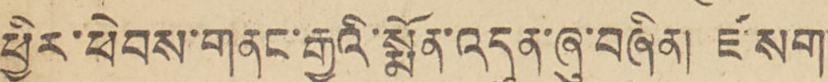ཕྱིར་ཕེབས་གནང་རྒྱུའི་སྨོན་འདུན་ཞུ་བཞིན། ཛ་སག་
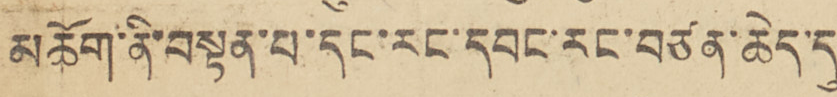མཆོག་ནི་བསྟན་པ་དང་རང་དབང་རང་བཙན་ཆེད་དུ་
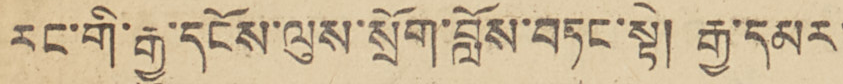རང་གི་རྒྱུ་དངོས་ལུས་སློག་བློས་བཏང་སྟེ། རྒྱ་དམར་
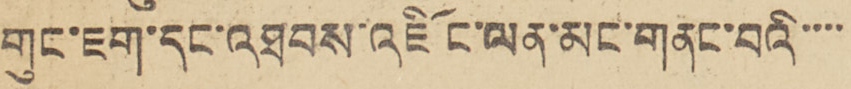གུང་ཇག་དང་འཐབས་འཛིང་ལན་མང་གནང་བའི་་་་
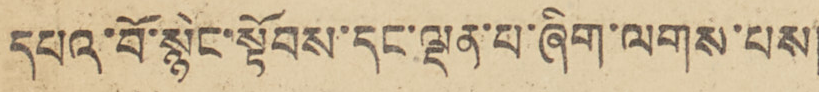དཔའ་བོ་སྙིང་སྟོབས་དང་ལྡན་པ་ཞིག་ལྒས་པས།
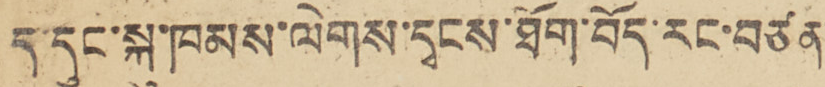ད་དུང་སྐུ་ཁམས་ལེགས་དྭངས་ཐོག་བོད་རང་བཙན་
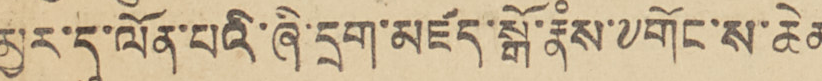མྱུར་དུ་ལོན་པའི་ཞི་དྲག་མཛད་སྒོ་རྣས་༸གོང་ས་ཆེན
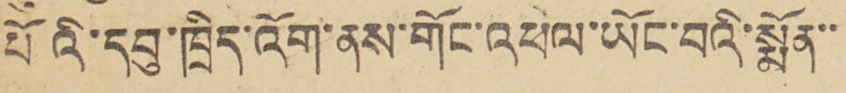པོའི་དབུ་ཁྲིད་འོག་ནས་གོང་འཕེལ་ཡོང་བའི་སྨོན་་
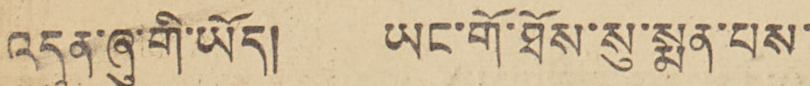འདུན་ཞུ་གི་ཡོད། ཡང་གོ་ཐོས་སུ་སྨན་པས་་
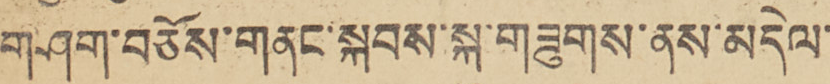གཤག་བཅོས་གནང་སྐབས་སྐུ་གཟུགས་ནས་མདེལ་
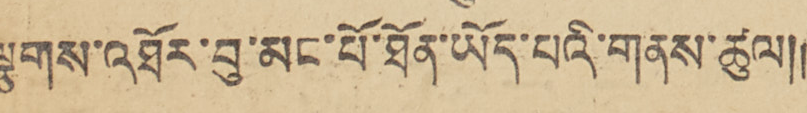ལྕགས་འཐོར་བུ་མང་པོ་ཐོན་ཡོད་པའི་གནས་ཚུལ།།
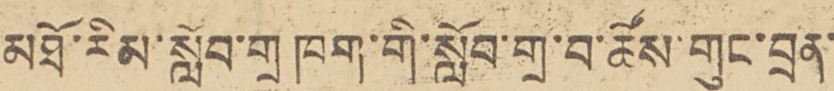མཐོ་རིམ་སློབ་གྲྭ ཁག་གི་སློབ་གྲྭ་བ་ཚོས་གུང་བྲན་
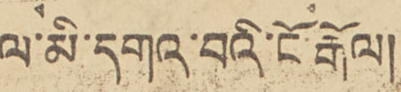ལ་མི་དགའ་བའི་ངོ་རྒོལ།
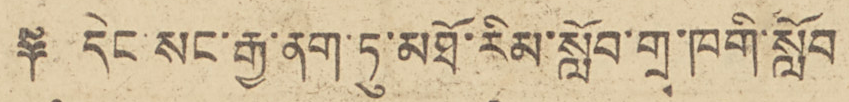༈ དེང་སང་རྒྱ་ནག་ཏུ་མཐོ་རིམ་སློབ་གྲྭ་ཁགི་སློབ
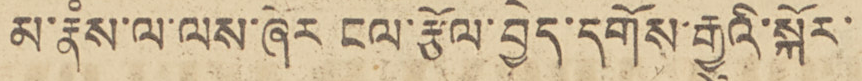མ་རྣཾས་ལ་ལས་ཞོར ངལ་རྩོལ་བྱེད་དགོས་རྒྱུའི་སྐོར་
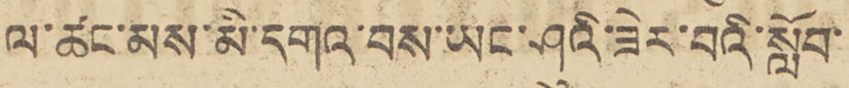ལ་ཚང་མས་མི་དགའ་བས་ཡང་ཤུའི་ཟེར་བའི་སློབ་
